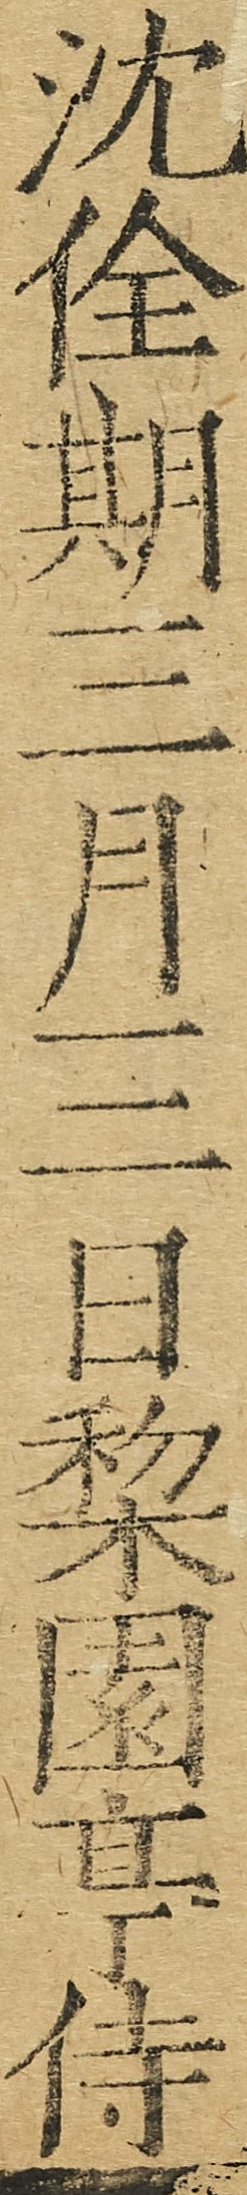沈佺期三月三日棃園亭侍
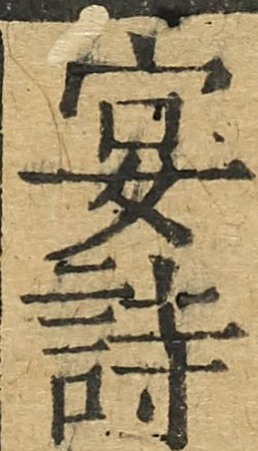宴詩
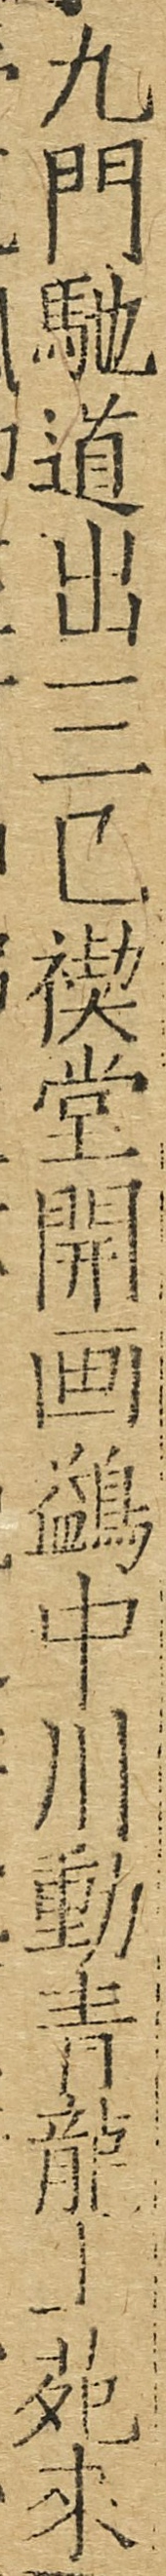九門馳道出三已禊堂開畫鷁中川動青龍上苑來
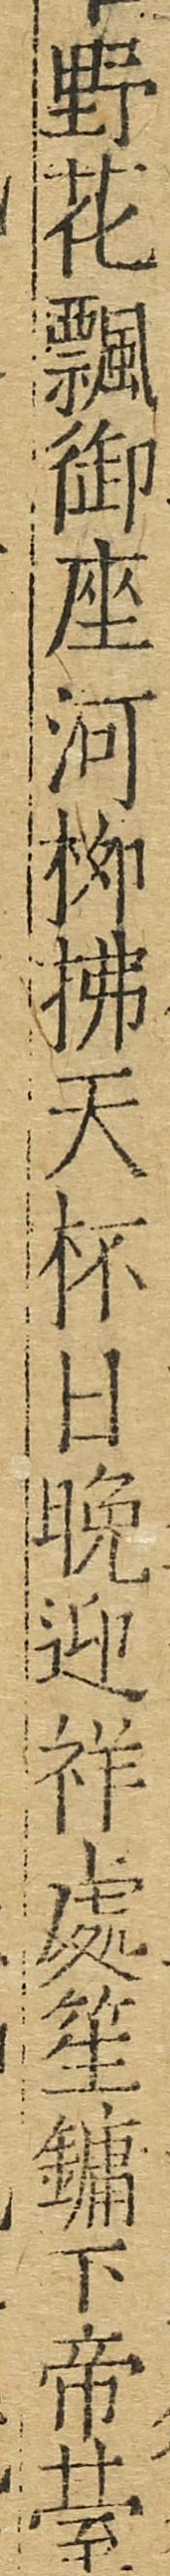野花飄御座河柳拂天杯日晚迎祥處笙鏞下帝臺
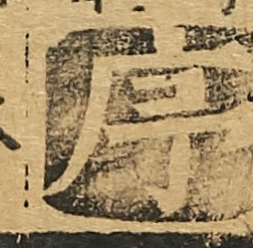序
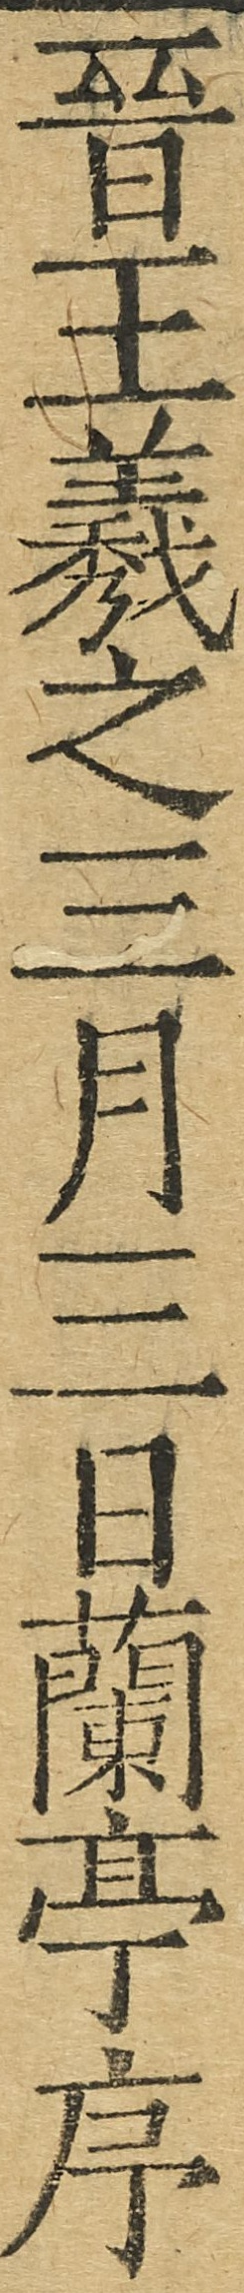晉王羲之三月三日蘭亭序
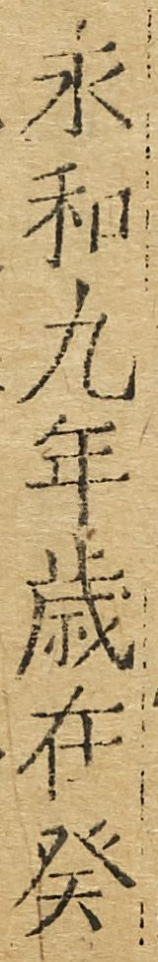永和九年歲在癸
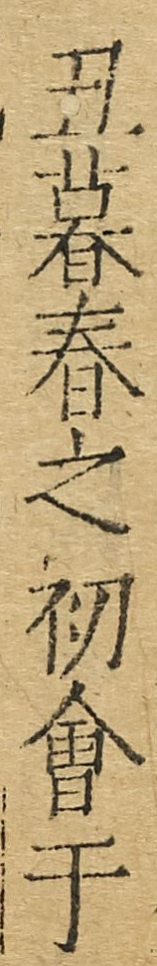丑暮春之初會于
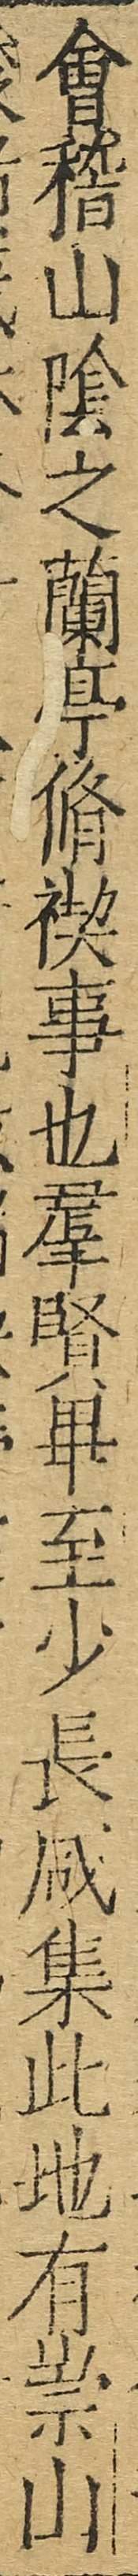會稽山陰之蘭亭修禊事也羣賢畢至少長咸集此地有崇山
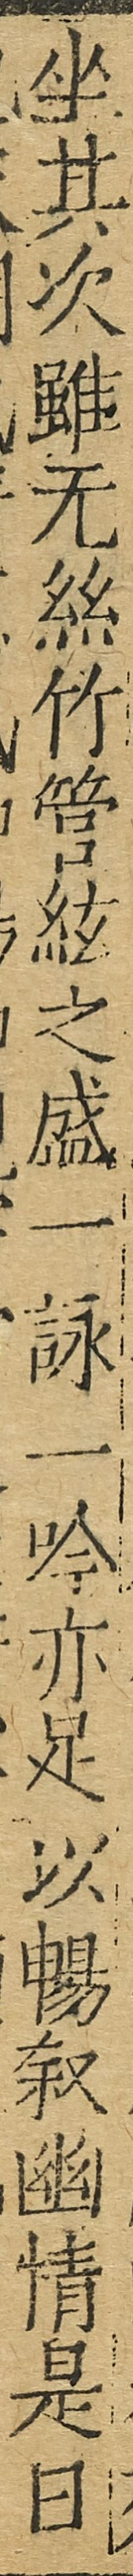坐其次雖無絲竹管絃之盛一詠一吟亦足以暢敍幽情是日
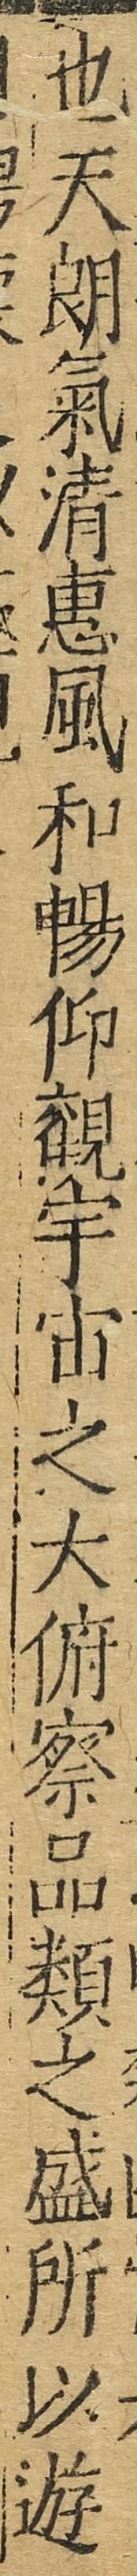也天朗氣清惠風和暢仰觀宇宙之大俯察品類之盛所以遊
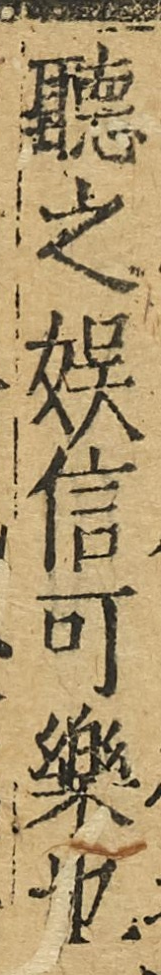聽之娛信可樂也
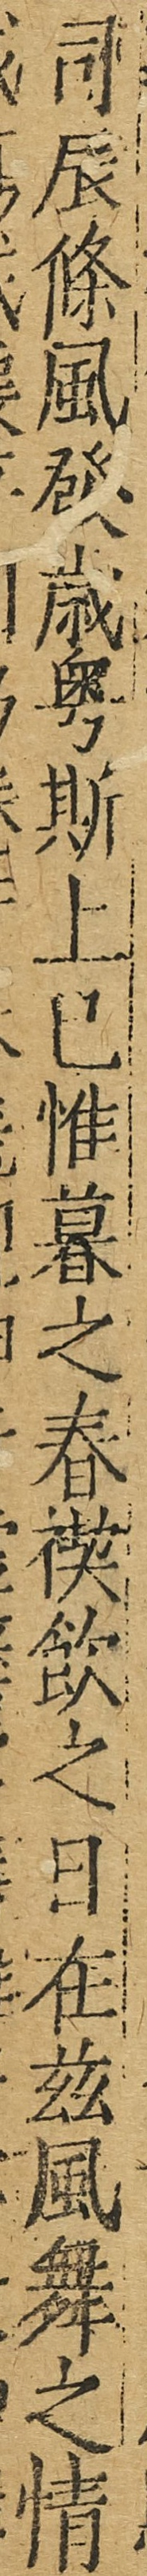司辰條風發歲粵斯上巳惟暮之春禊飲之日在茲風舞之情
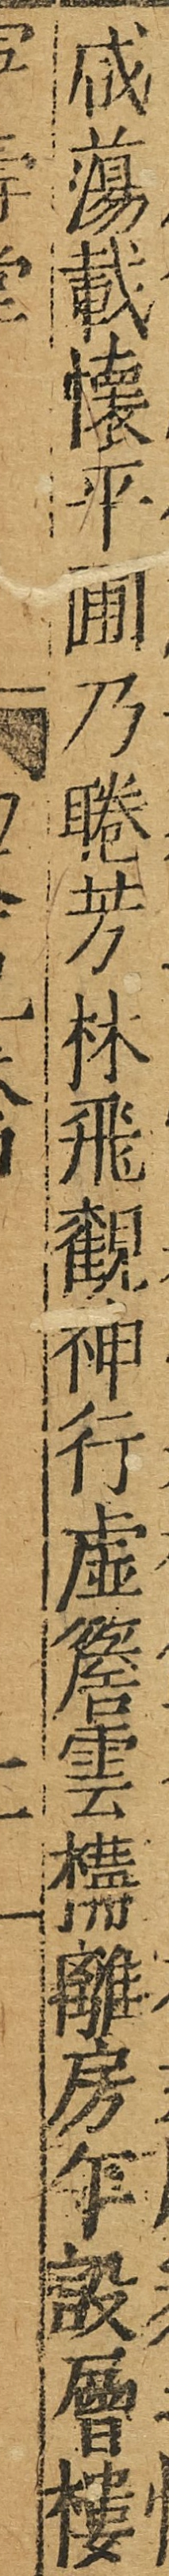咸蕩載懷平圃乃睠芳林飛觀神行虛簷雲構離房乍設層樓
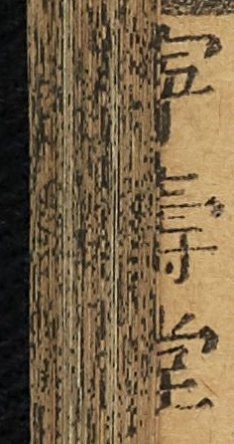寧壽堂
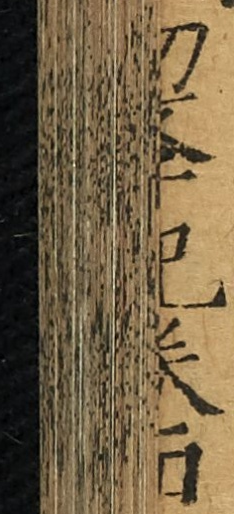初學記卷四
